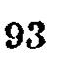93
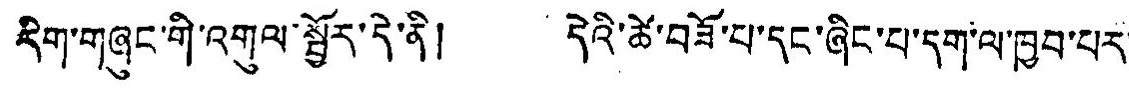རིག་གཞུང་གི་འགུལ་སྦྱོར་དེ་ནི། དེའི་ཚེ་བཟོ་པ་དང་ཞིང་པ་དག་ལ་ཁྱབ་པར་
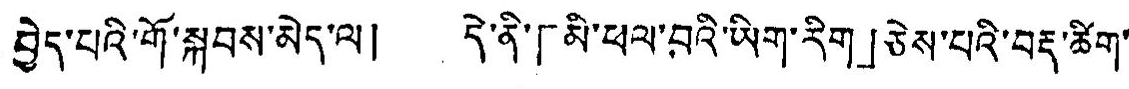བྱེད་པའི་གོ་སྐབས་མེད་ལ། དེ་ནི་「མི་ཕལ་བའི་ཡིག་རིག」ཅེས་པའི་བརྡ་ཚིག་
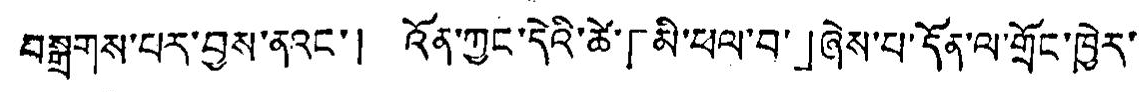བསྒྲགས་པར་བྱས་ནའང་། འོན་ཀྱང་དེའི་ཚེ་「མི་ཕལ་བ་」ཞེས་པ་དོན་ལ་གྲོང་ཁྱེར་
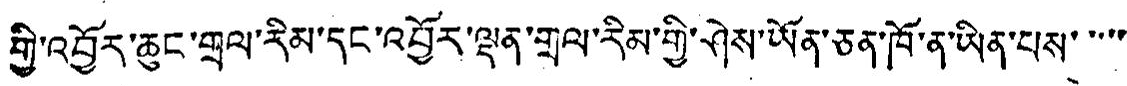གྱི་འབྱོར་ཆུང་གྲལ་རིམ་དང་འབྱོར་ལྡན་གྲལ་རིམ་གྱི་ཤེས་ཡོན་ཅན་ཁོ་ན་ཡིན་པས་་་་་
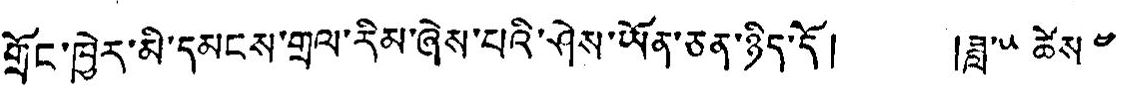གྲོང་ཁྱེར་མི་དམངས་གྲལ་རིམ་ཞེས་པའི་ཤེས་ཡོན་ཅན་ཉིད་དོ། །ཟླ་༥ ཚེས་ ༤
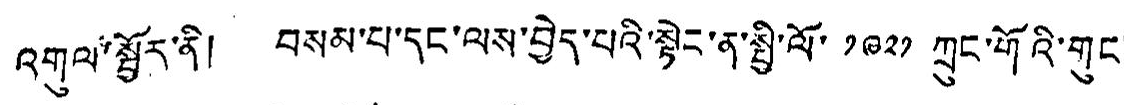འགྲུལ་སྦྱོར་ནི། བསམ་པ་དང་ལས་བྱེད་པའི་སྟེང་ན་སྤྱི་ལོ་ ༡༩༢༡ ཀྲུང་གོའི་གུང་
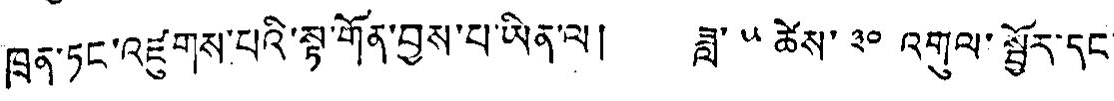ཁྲན་ཏང་འཛུགས་པའི་སྟ་གོན་བྱས་པ་ཡིན་ལ། ཟླ་ ༥ ཚེས་ ༣༠ འགུལ་སྦྱོར་དང་
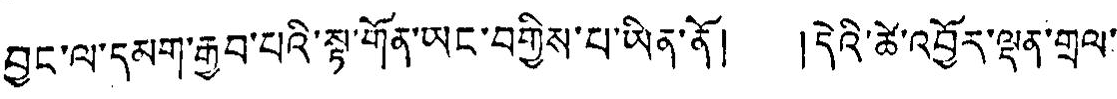བྱང་ལ་དམག་རྒྱབ་པའི་སྟ་གོན་ཡང་བགྱིས་པ་ཡིན་ནོ། །དེའི་ཚེ་འབྱོར་ལྡན་གྲལ་
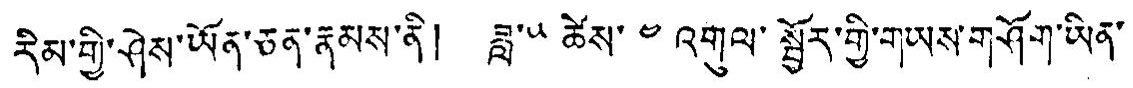རིམ་གྱི་ཤེས་ཡོན་ཅན་རྣམས་ནི། ཟླ་༥ ཚེས་ ༤ འགུལ་སྦྱོར་གྱི་གཡས་གཤོག་ཡིན་
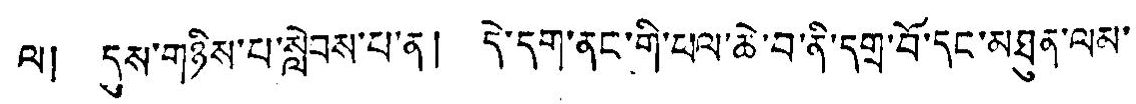ལ། དུས་གཉིས་པ་སླེབས་པ་ན། དེ་དག་ནང་གི་ཕལ་ཆེ་བ་ནི་དགྲ་བོ་དང་མཐུན་ལམ་
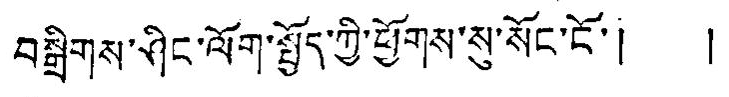བསྒྲིགས་ཤིང་ལོག་སྤྱོད་ཀྱི་ཕྱོགས་སུ་སོང་ངོ་། །
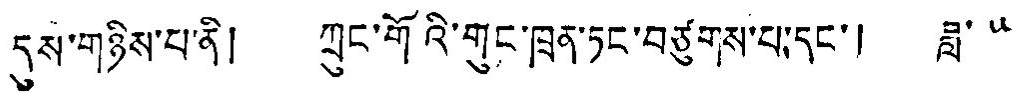དུས་གཉིས་པ་ནི། ཀྲུང་གོའི་གུང་ཁྲན་ཏང་བཙུགས་པ་དང་། ཟླ་ ༥
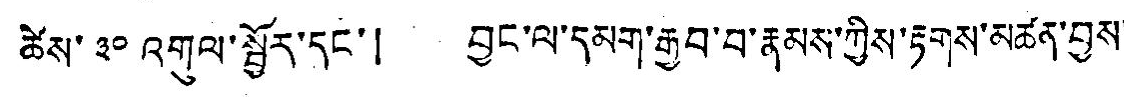ཚེས་ ༣༠ འགུལ་སྦྱོར་དང་། བྱང་ལ་དམག་རྒྱབ་བ་རྣམས་ཀྱིས་རྟགས་མཚན་བྱས་
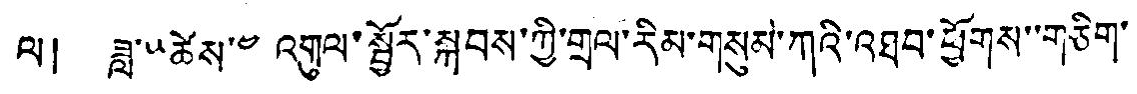ལ། ཟླ་༥ཚེས་༤ འགུལ་སྦྱོར་སྐབས་ཀྱི་གྲལ་རིམ་གསུམ་ཀའི་འཐབ་ཕྱོགས་གཅིག་
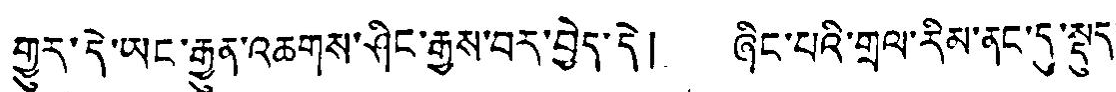གྱུར་དེ་ཡང་རྒྱུན་འཆགས་ཤིང་རྒྱས་བར་བྱེད་དེ། ཞིང་པའི་གྲལ་རིམ་ནང་དུ་སྡུད་
